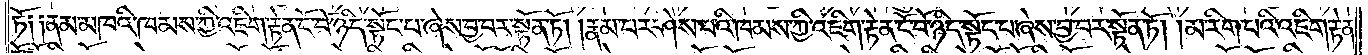ཏོ༑ ༑ནམ་མཁའི་ཁམས་ཀྱི་འཇིག་རྟེན་ངོ་བོ་ཉིད་སྟོང་པ་ཞེས་བྱ་བར་སྟོན་ཏོ། །རྣམ་པར་ཤེས་པའི་ཁམས་ཀྱི་འཇིག་རྟེན་ངོ་བོ་ཉིད་སྟོང་པ་ཞེས་བྱ་བར་སྟོན་ཏོ། །མ་རིག་པའི་འཇིག་རྟེན་
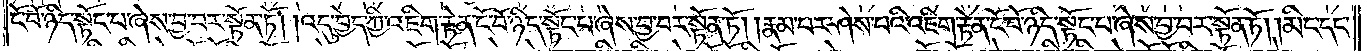ངོ་བོ་ཉིད་སྟོང་པ་ཞེས་བྱ་བར་སྟོན་ཏོ། །འདུ་བྱེད་ཀྱི་འཇིག་རྟེན་ངོ་བོ་ཉིད་སྟོང་པ་ཞེས་བྱ་བར་སྟོན་ཏོ། །རྣམ་པར་ཤེས་པའི་འཇིག་རྟེན་ངོ་བོ་ཉིད་སྟོང་པ་ཞེས་བྱ་བར་སྟོན་ཏོ། །མིང་དང་
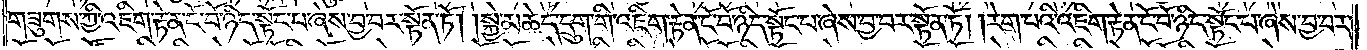གཟུགས་ཀྱི་འཇིག་རྟེན་ངོ་བོ་ཉིད་སྟོང་པ་ཞེས་བྱ་བར་སྟོན་ཏོ། །སྐྱེ་མཆེད་དྲུག་གི་འཇིག་རྟེན་ངོ་བོ་ཉིད་སྟོང་པ་ཞེས་བྱ་བར་སྟོན་ཏོ། །རེག་པའི་འཇིག་རྟེན་ངོ་བོ་ཉིད་སྟོང་པ་ཞེས་བྱ་བར་
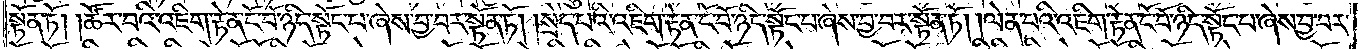སྟོན་ཏོ། །ཚོར་བའི་འཇིག་རྟེན་ངོ་བོ་ཉིད་སྟོང་པ་ཞེས་བྱ་བར་སྟོན་ཏོ། །སྲེད་པའི་འཇིག་རྟེན་ངོ་བོ་ཉིད་སྟོང་པ་ཞེས་བྱ་བར་སྟོན་ཏོ། །ལེན་པའི་འཇིག་རྟེན་ངོ་བོ་ཉིད་སྟོང་པ་ཞེས་བྱ་བར་
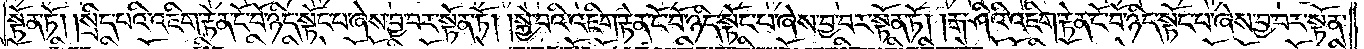སྟོན་ཏོ། །སྲིད་པའི་འཇིག་རྟེན་ངོ་བོ་ཉིད་སྟོང་པ་ཞེས་བྱ་བར་སྟོན་ཏོ། །སྐྱེ་བའི་འཇིག་རྟེན་ངོ་བོ་ཉིད་སྟོང་པ་ཞེས་བྱ་བར་སྟོན་ཏོ། །རྒ་ཤིའི་འཇིག་རྟེན་ངོ་བོ་ཉིད་སྟོང་པ་ཞེས་བྱ་བར་སྟོན་
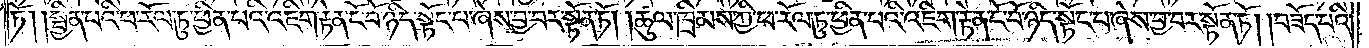ཏོ། །སྦྱིན་པའི་ཕ་རོལ་ཏུ་ཕྱིན་པའི་འཇིག་རྟེན་ངོ་བོ་ཉིད་སྟོང་པ་ཞེས་བྱ་བར་སྟོན་ཏོ། །ཚུལ་ཁྲིམས་ཀྱི་ཕ་རོལ་ཏུ་ཕྱིན་པའི་འཇིག་རྟེན་ངོ་བོ་ཉིད་སྟོང་པ་ཞེས་བྱ་བར་སྟོན་ཏོ། །བཟོད་པའི་
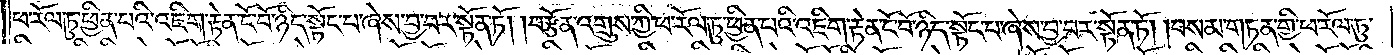ཕ་རོལ་ཏུ་ཕྱིན་པའི་འཇིག་རྟེན་ངོ་བོ་ཉིད་སྟོང་པ་ཞེས་བྱ་བར་སྟོན་ཏོ། །བརྩོན་འགྲུས་ཀྱི་ཕ་རོལ་ཏུ་ཕྱིན་པའི་འཇིག་རྟེན་ངོ་བོ་ཉིད་སྟོང་པ་ཞེས་བྱ་བར་སྟོན་ཏོ། །བསམ་གཏན་གྱི་ཕ་རོལ་ཏུ་
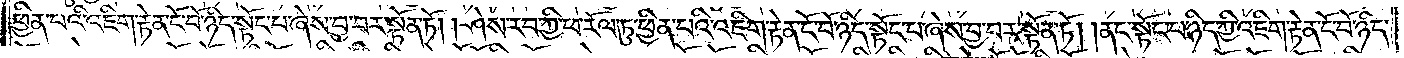ཕྱིན་པའི་འཇིག་རྟེན་ངོ་བོ་ཉིད་སྟོང་པ་ཞེས་བྱ་བར་སྟོན་ཏོ། །ཤེས་རབ་ཀྱི་ཕ་རོལ་ཏུ་ཕྱིན་པའི་འཇིག་རྟེན་ངོ་བོ་ཉིད་སྟོང་པ་ཞེས་བྱ་བར་སྟོན་ཏོ། །ནང་སྟོང་པ་ཉིད་ཀྱི་འཇིག་རྟེན་ངོ་བོ་ཉིད་
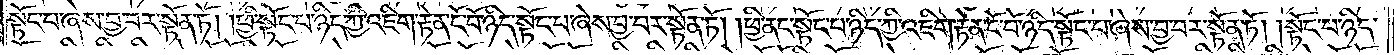སྟོང་པ་ཞེས་བྱ་བར་སྟོན་ཏོ། །ཕྱི་སྟོང་པ་ཉིད་ཀྱི་འཇིག་རྟེན་ངོ་བོ་ཉིད་སྟོང་པ་ཞེས་བྱ་བར་སྟོན་ཏོ། །ཕྱི་ནང་སྟོང་པ་ཉིད་ཀྱི་འཇིག་རྟེན་ངོ་བོ་ཉིད་སྟོང་པ་ཞེས་བྱ་བར་སྟོན་ཏོ། །སྟོང་པ་ཉིད་
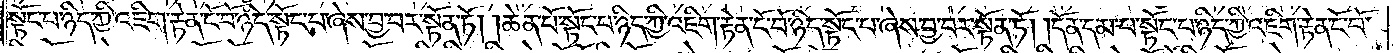སྟོང་པ་ཉིད་ཀྱི་འཇིག་རྟེན་ངོ་བོ་ཉིད་སྟོང་པ་ཞེས་བྱ་བར་སྟོན་ཏོ། །ཆེན་པོ་སྟོང་པ་ཉིད་ཀྱི་འཇིག་རྟེན་ངོ་བོ་ཉིད་སྟོང་པ་ཞེས་བྱ་བར་སྟོན་ཏོ། །དོན་དམ་པ་སྟོང་པ་ཉིད་ཀྱི་འཇིག་རྟེན་ངོ་བོ་
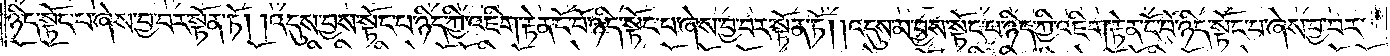ཉིད་སྟོང་པ་ཞེས་བྱ་བར་སྟོན་ཏོ། །འདུས་བྱས་སྟོང་པ་ཉིད་ཀྱི་འཇིག་རྟེན་ངོ་བོ་ཉིད་སྟོང་པ་ཞེས་བྱ་བར་སྟོན་ཏོ། །འདུས་མ་བྱས་སྟོང་པ་ཉིད་ཀྱི་འཇིག་རྟེན་ངོ་བོ་ཉིད་སྟོང་པ་ཞེས་བྱ་བར་
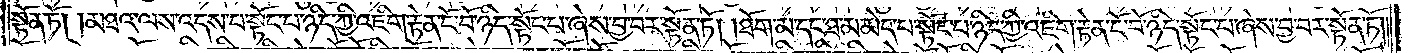སྟོན་ཏོ། །མཐའ་ལས་འདས་པ་སྟོང་པ་ཉིད་ཀྱི་འཇིག་རྟེན་ངོ་བོ་ཉིད་སྟོང་པ་ཞེས་བྱ་བར་སྟོན་ཏོ། །ཐོག་མ་དང་ཐ་མ་མེད་པ་སྟོང་པ་ཉིད་ཀྱི་འཇིག་རྟེན་ངོ་བོ་ཉིད་སྟོང་པ་ཞེས་བྱ་བར་སྟོན་ཏོ། །
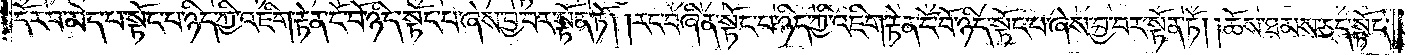དོར་བ་མེད་པ་སྟོང་པ་ཉིད་ཀྱི་འཇིག་རྟེན་ངོ་བོ་ཉིད་སྟོང་པ་ཞེས་བྱ་བར་སྟོན་ཏོ། །རང་བཞིན་སྟོང་པ་ཉིད་ཀྱི་འཇིག་རྟེན་ངོ་བོ་ཉིད་སྟོང་པ་ཞེས་བྱ་བར་སྟོན་ཏོ། །ཆོས་ཐམས་ཅད་སྟོང་
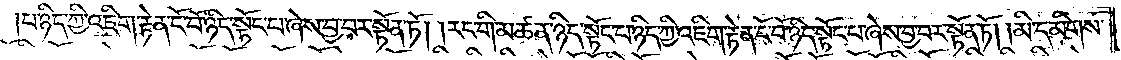པ་ཉིད་ཀྱི་འཇིག་རྟེན་ངོ་བོ་ཉིད་སྟོང་པ་ཞེས་བྱ་བར་སྟོན་ཏོ། །རང་གི་མཚན་ཉིད་སྟོང་པ་ཉིད་ཀྱི་འཇིག་རྟེན་ངོ་བོ་ཉིད་སྟོང་པ་ཞེས་བྱ་བར་སྟོན་ཏོ། །མི་དམིགས་
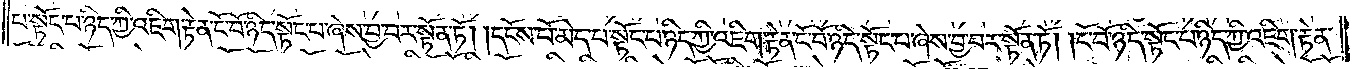པ་སྟོང་པ་ཉིད་ཀྱི་འཇིག་རྟེན་ངོ་བོ་ཉིད་སྟོང་པ་ཞེས་བྱ་བར་སྟོན་ཏོ། །དངོས་པོ་མེད་པ་སྟོང་པ་ཉིད་ཀྱི་འཇིག་རྟེན་ངོ་བོ་ཉིད་སྟོང་པ་ཞེས་བྱ་བར་སྟོན་ཏོ། །ངོ་བོ་ཉིད་སྟོང་པ་ཉིད་ཀྱི་འཇིག་རྟེན་
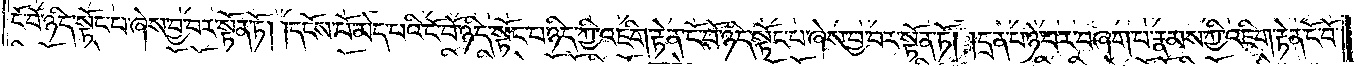ངོ་བོ་ཉིད་སྟོང་པ་ཞེས་བྱ་བར་སྟོན་ཏོ། །དངོས་པོ་མེད་པའི་ངོ་བོ་ཉིད་སྟོང་པ་ཉིད་ཀྱི་འཇིག་རྟེན་ངོ་བོ་ཉིད་སྟོང་པ་ཞེས་བྱ་བར་སྟོན་ཏོ། །དྲན་པ་ཉེ་བར་བཞག་པ་རྣམས་ཀྱི་འཇིག་རྟེན་ངོ་བོ་
